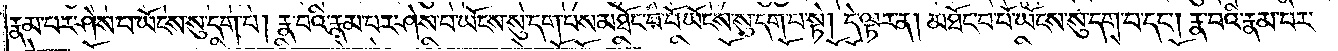རྣམ་པར་ཤེས་པ་ཡོངས་སུ་དག་པ། རྣ་བའི་རྣམ་པར་ཤེས་པ་ཡོངས་སུ་དག་པས་མཐོང་བ་པོ་ཡོངས་སུ་དག་པ་སྟེ། དེ་ལྟར་ན། མཐོང་བ་པོ་ཡོངས་སུ་དག་པ་དང༌། རྣ་བའི་རྣམ་པར་
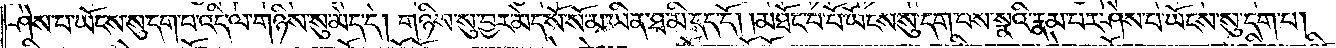རྣམ་པར་ཤེས་པ་ཡོངས་སུ་དག་པ་འདི་ལ་གཉིས་སུ་མེད་དེ། གཉིས་སུ་བྱར་མེད་སོ་སོ་མ་ཡིན་ཐ་མི་དད་དོ། །མཐོང་བ་པོ་ཡོངས་སུ་དག་པས་སྣའི་རྣམ་པར་ཤེས་པ་ཡོངས་སུ་དག་པ།
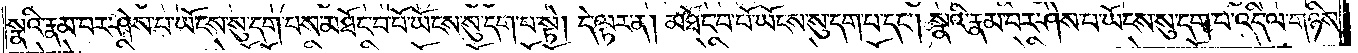སྣའི་རྣམ་པར་ཤེས་པ་ཡོངས་སུ་དག་པས་མཐོང་བ་པོ་ཡོངས་སུ་དག་པ་སྟེ། དེ་ལྟར་ན། མཐོང་བ་པོ་ཡོངས་སུ་དག་པ་དང༌། སྣའི་རྣམ་པར་ཤེས་པ་ཡོངས་སུ་དག་པ་འདི་ལ་གཉིས་
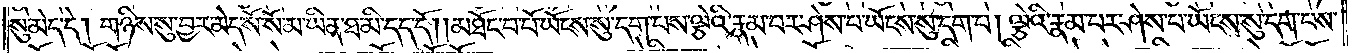སུ་མེད་དེ། གཉིས་སུ་བྱར་མེད་སོ་སོ་མ་ཡིན་ཐ་མི་དད་དོ། །མཐོང་བ་པོ་ཡོངས་སུ་དག་པས་ལྕེའི་རྣམ་པར་ཤེས་པ་ཡོངས་སུ་དག་པ། ལྕེའི་རྣམ་པར་ཤེས་པ་ཡོངས་སུ་དག་པས་
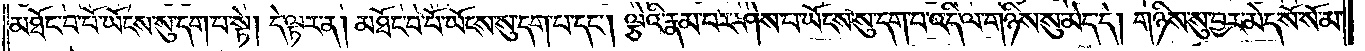མཐོང་བ་པོ་ཡོངས་སུ་དག་པ་སྟེ། དེ་ལྟར་ན། མཐོང་བ་པོ་ཡོངས་སུ་དག་པ་དང༌། ལྕེའི་རྣམ་པར་ཤེས་པ་ཡོངས་སུ་དག་པ་འདི་ལ་གཉིས་སུ་མེད་དེ། གཉིས་སུ་བྱར་མེད་སོ་སོ་མ་
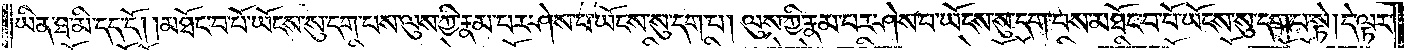ཡིན་ཐ་མི་དད་དོ། །མཐོང་བ་པོ་ཡོངས་སུ་དག་པས་ལུས་ཀྱི་རྣམ་པར་ཤེས་པ་ཡོངས་སུ་དག་པ། ལུས་ཀྱི་རྣམ་པར་ཤེས་པ་ཡོངས་སུ་དག་པས་མཐོང་བ་པོ་ཡོངས་སུ་དག་པ་སྟེ། དེ་ལྟར་
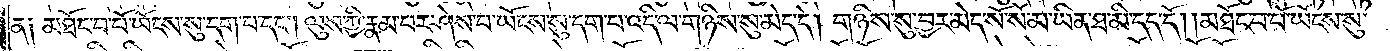ན། མཐོང་བ་པོ་ཡོངས་སུ་དག་པ་དང༌། ལུས་ཀྱི་རྣམ་པར་ཤེས་པ་ཡོངས་སུ་དག་པ་འདི་ལ་གཉིས་སུ་མེད་དེ། གཉིས་སུ་བྱར་མེད་སོ་སོ་མ་ཡིན་ཐ་མི་དད་དོ། །མཐོང་བ་པོ་ཡོངས་སུ་
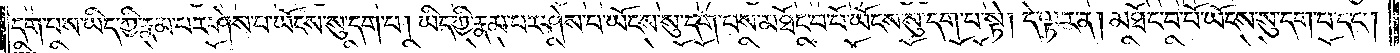དག་པས་ཡིད་ཀྱི་རྣམ་པར་ཤེས་པ་ཡོངས་སུ་དག་པ། ཡིད་ཀྱི་རྣམ་པར་ཤེས་པ་ཡོངས་སུ་དག་པས་མཐོང་བ་པོ་ཡོངས་སུ་དག་པ་སྟེ། དེ་ལྟར་ན། མཐོང་བ་པོ་ཡོངས་སུ་དག་པ་དང༌།
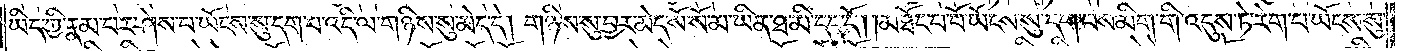ཡིད་ཀྱི་རྣམ་པར་ཤེས་པ་ཡོངས་སུ་དག་པ་འདི་ལ་གཉིས་སུ་མེད་དེ། གཉིས་སུ་བྱར་མེད་སོ་སོ་མ་ཡིན་ཐ་མི་དད་དོ། །མཐོང་བ་པོ་ཡོངས་སུ་དག་པས་མིག་གི་འདུས་ཏེ་རེག་པ་ཡོངས་སུ་
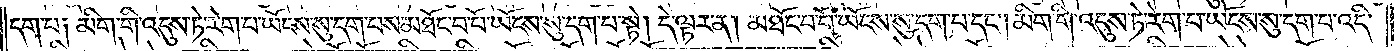དག་པ༑ མིག་གི་འདུས་ཏེ་རེག་པ་ཡོངས་སུ་དག་པས་མཐོང་བ་པོ་ཡོངས་སུ་དག་པ་སྟེ། དེ་ལྟར་ན། མཐོང་བ་པོ་ཡོངས་སུ་དག་པ་དང༌། མིག་གི་འདུས་ཏེ་རེག་པ་ཡོངས་སུ་དག་པ་འདི་
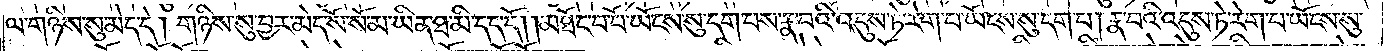ལ་གཉིས་སུ་མེད་དེ། གཉིས་སུ་བྱར་མེད་སོ་སོ་མ་ཡིན་ཐ་མི་དད་དོ། །མཐོང་བ་པོ་ཡོངས་སུ་དག་པས་རྣ་བའི་འདུས་ཏེ་རེག་པ་ཡོངས་སུ་དག་པ། རྣ་བའི་འདུས་ཏེ་རེག་པ་ཡོངས་སུ་
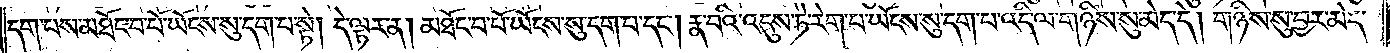དག་པས་མཐོང་བ་པོ་ཡོངས་སུ་དག་པ་སྟེ། དེ་ལྟར་ན། མཐོང་བ་པོ་ཡོངས་སུ་དག་པ་དང༌། རྣ་བའི་འདུས་ཏེ་རེག་པ་ཡོངས་སུ་དག་པ་འདི་ལ་གཉིས་སུ་མེད་དེ། གཉིས་སུ་བྱར་མེད་
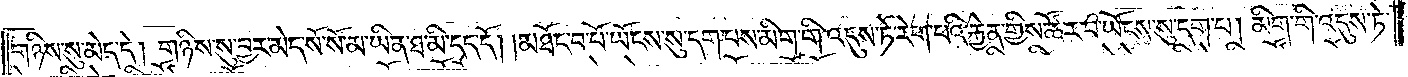གཉིས་སུ་མེད་དེ། གཉིས་སུ་བྱར་མེད་སོ་སོ་མ་ཡིན་ཐ་མི་དད་དོ། །མཐོང་བ་པོ་ཡོངས་སུ་དག་པས་མིག་གི་འདུས་ཏེ་རེག་པའི་རྐྱེན་གྱིས་ཚོར་བ་ཡོངས་སུ་དག་པ། མིག་གི་འདུས་ཏེ་
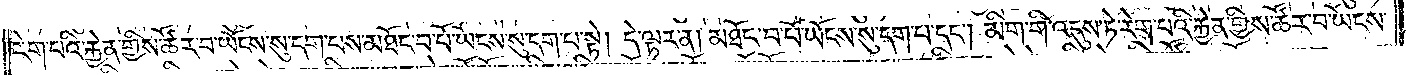རེག་པའི་རྐྱེན་གྱིས་ཚོར་བ་ཡོངས་སུ་དག་པས་མཐོང་བ་པོ་ཡོངས་སུ་དག་པ་སྟེ། དེ་ལྟར་ན། མཐོང་བ་པོ་ཡོངས་སུ་དག་པ་དང༌། མིག་གི་འདུས་ཏེ་རེག་པའི་རྐྱེན་གྱིས་ཚོར་བ་ཡོངས་
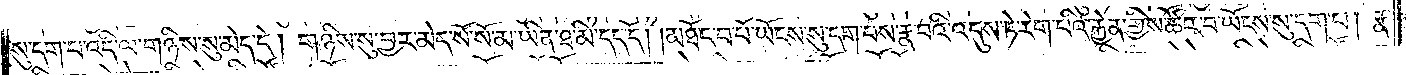སུ་དག་པ་འདི་ལ་གཉིས་སུ་མེད་དེ། གཉིས་སུ་བྱར་མེད་སོ་སོ་མ་ཡིན་ཐ་མི་དད་དོ། །མཐོང་བ་པོ་ཡོངས་སུ་དག་པས་རྣ་བའི་འདུས་ཏེ་རེག་པའི་རྐྱེན་གྱིས་ཚོར་བ་ཡོངས་སུ་དག་པ། རྣ་
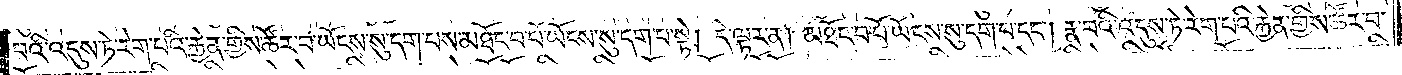བའི་འདུས་ཏེ་རེག་པའི་རྐྱེན་གྱིས་ཚོར་བ་ཡོངས་སུ་དག་པས་མཐོང་བ་པོ་ཡོངས་སུ་དག་པ་སྟེ། དེ་ལྟར་ན། མཐོང་བ་པོ་ཡོངས་སུ་དག་པ་དང༌། རྣ་བའི་འདུས་ཏེ་རེག་པའི་རྐྱེན་གྱིས་ཚོར་བ་
